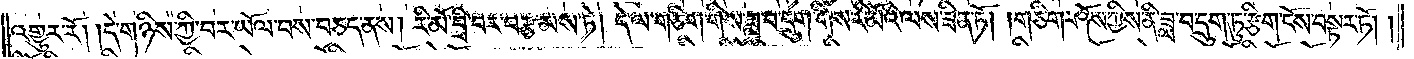འགྱུར་རོ། །དེ་གཉིས་ཀྱི་བར་ཡོལ་བས་བཅད་ནས། རི་མོ་བྲི་བར་བརྩམས་ཏེ། དེ་ལ་གཅིག་གིས་ཟླ་བ་དྲུག་གིས་རི་མོའི་ལས་ཟིན་ཏོ། །གཅིག་ཤོས་ཀྱིས་ནི་ཟླ་བ་དྲུག་ཏུ་རྩིག་ངོས་བསྟར་ཏོ། །
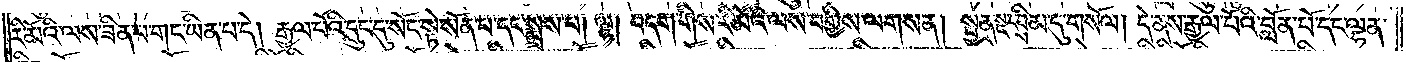རི་མོའི་ལས་ཟིན་པ་གང་ཡིན་པ་དེ། རྒྱལ་པོའི་དྲུང་དུ་སོང་སྟེ་སོན་པ་དང་སྨྲས་པ། ལྷ། བདག་གིས་རི་མོའི་ལས་བགྱིས་ལགས་ན། སྤྱན་སྔར་བྲིམ་དུ་གསོལ། དེ་ནས་རྒྱལ་པོའི་བློན་པོ་དང་ལྷན་
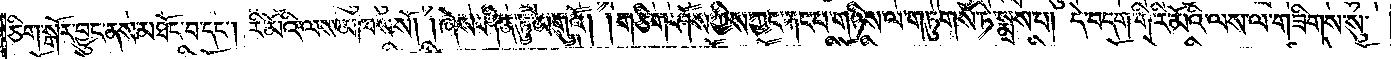ཅིག་སྒོར་བྱུང་ནས་མཐོང་བ་དང༌། རི་མོའི་ལས་མཁས་སོ། །ཞེས་ཤིན་ཏུ་མགུའོ། །གཅིག་ཤོས་ཀྱིས་ཀྱང་རྐང་པ་གཉིས་ལ་གཏུགས་ཏེ་སྨྲས་པ། དེ་བདག་གི་རི་མོའི་ལས་ལ་གཟིགས་སུ་
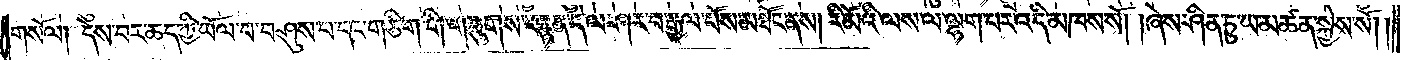གསོལ། དེས་བར་ཆད་ཀྱི་ཡོལ་བ་བཤུས་པ་དང་གཅིག་གི་གཟུགས་བརྙན་དེ་ལ་ཤར་བ་རྒྱལ་པོས་མཐོང་ནས། རི་མོའི་ལས་ལ་ལྷག་པར་འདི་མཁས་སོ། །ཞེས་ཤིན་ཏུ་ཡ་མཚན་སྐྱེས་སོ། །
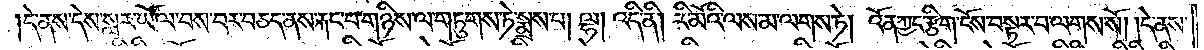དེ་ནས་དེས་སླར་ཡོལ་བས་བར་བཅད་ནས་རྐང་པ་གཉིས་ལ་གཏུགས་ཏེ་སྨྲས་པ། ལྷ། འདི་ནི། རི་མོའི་ལས་མ་ལགས་ཏེ། འོན་ཀྱང་རྩིག་ངོས་བསྟར་བ་ལགས་སོ། །དེ་ནས་
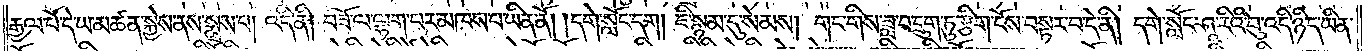རྒྱལ་པོ་དེ་ཡ་མཚན་སྐྱེས་ནས་སྨྲས་པ། འདི་ནི། བཟོ་ལ་ལྷག་པར་མཁས་པ་ཡིན་ནོ། །དགེ་སློང་དག །ཇི་སྙམ་དུ་སེམས། གང་གིས་ཟླ་བ་དྲུག་ཏུ་རྩིག་ངོས་བསྟར་བ་དེ་ནི། དགེ་སློང་ཤཱ་རིའི་བུ་འདི་ཉིད་ཡིན་
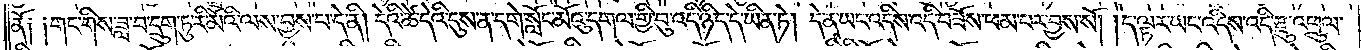ནོ༑ ༑གང་གིས་ཟླ་བ་དྲུག་ཏུ་རི་མོའི་ལས་བྱས་པ་དེ་ནི། དེའི་ཚེ་དེའི་དུས་ན་དགེ་སློང་མོའུ་དགལ་གྱི་བུ་འདི་ཉིད་དེ་ཡིན་ཏེ། དེ་ན་ཡང་འདིས་འདི་བཟོས་ཕམ་པར་བྱས་སོ། །ད་ལྟར་ཡང་འདིས་འདི་རྫུ་འཕྲུལ་
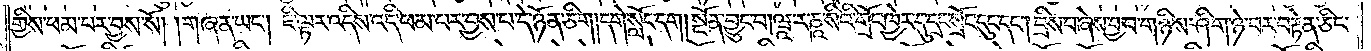གྱིས་ཕམ་པར་བྱས་སོ། །གཞན་ཡང༌། ཇི་ལྟར་འདིས་འདི་ཕམ་པར་བྱས་པ་དེ་ཉོན་ཅིག །དགེ་སློང་དག །སྔོན་བྱུང་བ། ཝཱ་ར་ཎཱ་སིའི་གྲོང་ཁྱེར་དུ་དྲང་སྲོང་དུང་དང༌། བྲིས་པ་ཞེས་བྱ་བ་གཉིས་ཤིག་ཉེ་བར་བརྟེན་ཅིང་
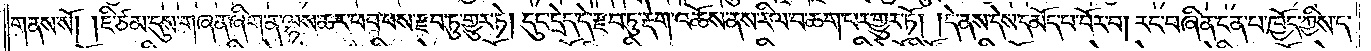གནས་སོ། །ཇི་ཙམ་དུས་གཞན་ཞིག་ན་ལྷས་ཆར་ཕབ་པས་རྫབ་ཏུ་གྱུར་ཏེ། དུང་དྲེད་དེ་རྫབ་ཏུ་རྡེག་འཆོས་ནས་རིལ་བ་ཆག་པར་གྱུར་ཏོ། །དེ་ནས་དེས་དམོད་པ་བོར་པ། རང་བཞིན་ངན་པ་ཁྱོད་ཀྱིས་ད་
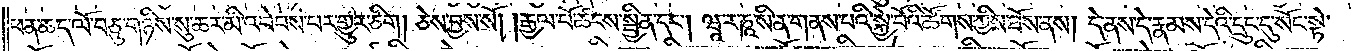ཕན་ཆད་ལོ་བཅུ་གཉིས་སུ་ཆར་མི་འབེབས་པར་གྱུར་ཅིག། ཅེས་བྱས་སོ། །རྒྱལ་པོ་ཚངས་སྦྱིན་དང༌། ཝཱ་ར་ཎཱ་སི་ན་གནས་པའི་སྐྱེ་བོའི་ཚོགས་ཀྱིས་ཐོས་ནས། དེ་ནས་དེ་རྣམས་དེའི་དྲུང་དུ་སོང་སྟེ་
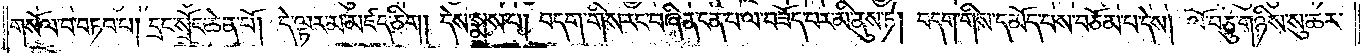གསོལ་བ་བཏབ་པ། དྲང་སྲོང་ཆེན་པོ། དེ་ལྟར་མ་མཛད་ཅིག། དེས་སྨྲས་པ། བདག་གིས་རང་བཞིན་ངན་པ་ལ་བཟོད་པར་མི་ནུས་ཏེ། བདག་གིས་དམོད་པས་བཅོམ་པ་དེས། ལོ་བཅུ་གཉིས་སུ་ཆར་
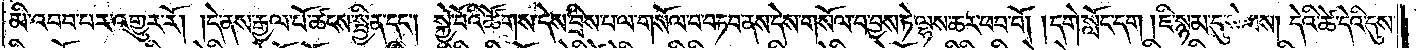མི་འབབ་པར་འགྱུར་རོ། །དེ་ནས་རྒྱལ་པོ་ཚངས་སྦྱིན་དང༌། སྐྱེ་བོའི་ཚོགས་དེས་བྲིས་པ་ལ་གསོལ་བ་བཏབ་ནས་དེས་གསོལ་བ་བྱས་ཏེ་ལྷས་ཆར་ཕབ་བོ། །དགེ་སློང་དག །ཇི་སྙམ་དུ་སེམས། དེའི་ཚེ་དེའི་དུས་
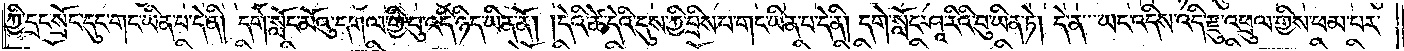ཀྱི་དྲང་སྲོང་དུང་གང་ཡིན་པ་དེ་ནི། དགེ་སློང་མོའུ་དགལ་གྱི་བུ་འདི་ཉིད་ཡིན་ནོ། །དེའི་ཚེ་དེའི་དུས་ཀྱི་བྲིས་པ་གང་ཡིན་པ་དེ་ནི། དགེ་སློང་ཤཱ་རིའི་བུ་ཡིན་ཏེ། དེ་ན་ཡང་འདིས་འདི་རྫུ་འཕྲུལ་གྱིས་ཕམ་པར་
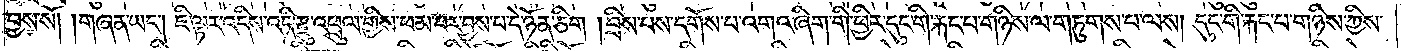བྱས་སོ། །གཞན་ཡང༌། ཇི་ལྟར་འདིས་འདི་རྫུ་འཕྲུལ་གྱིས་ཕམ་པར་བྱས་པ་དེ་ཉོན་ཅིག །བྲིས་པས་དགོས་པ་འགའ་ཞིག་གི་ཕྱིར་དུང་གི་རྐང་པ་གཉིས་ལ་གཏུགས་པ་ལས། དུང་གི་རྐང་པ་གཉིས་ཀྱིས་
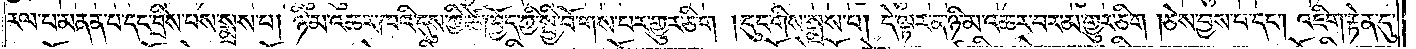རལ་པ་མནན་པ་དང་བྲིས་པས་སྨྲས་པ། ཉི་མ་འཆར་ཁའི་དུས་ཀྱི་ཚེ་ཁྱོད་ཀྱི་སྤྱི་བོ་གས་པར་གྱུར་ཅིག །དུང་གིས་སྨྲས་པ། དེ་ལྟར་ན་ཉི་མ་འཆར་བར་མ་གྱུར་ཅིག །ཅེས་བྱས་པ་དང༌། འཇིག་རྟེན་དུ་
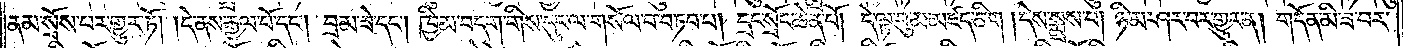ནམ་སྲོས་པར་གྱུར་ཏོ། །དེ་ནས་རྒྱལ་པོ་དང༌། བྲམ་ཟེ་དང༌། ཁྱིམ་བདག་གིས་དུང་ལ་གསོལ་བ་བཏབ་པ། དྲང་སྲོང་ཆེན་པོ། དེ་ལྟ་བུ་མ་མཛད་ཅིག །དེས་སྨྲས་པ། ཉི་མ་ཤར་བར་གྱུར་ན། གདོན་མི་ཟ་བར་
